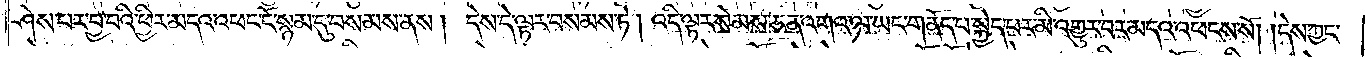ཤེས་པར་བྱ་བའི་ཕྱིར་མདའ་འཕང་ངོ་སྙམ་དུ་བསམས་ནས། དེས་དེ་ལྟར་བསམས་ཏེ། འདི་ལྟར་སེམས་ཅན་འགའ་ལ་ཡང་གནོད་པ་སྐྱེད་པར་མི་འགྱུར་བར་མདའ་འཕངས་སོ། །དེས་ཀྱང་
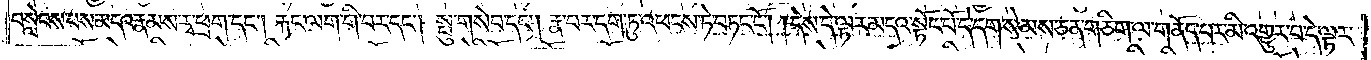བསླེབས་པས་མདའ་རྣམས་རྭ་ཕྲག་དང༌། རྐང་ལག་གི་བར་དང༌། སྤུ་གསེབ་དང༌། རྣ་བར་དག་ཏུ་འཕངས་ཏེ་བཏང་ངོ༌། །དེས་དེ་ལྟར་མདའ་སྟོང་པོ་དེ་དག་སེམས་ཅན་གཅིག་ལ་གནོད་པར་མི་འགྱུར་བ་དེ་ལྟར་
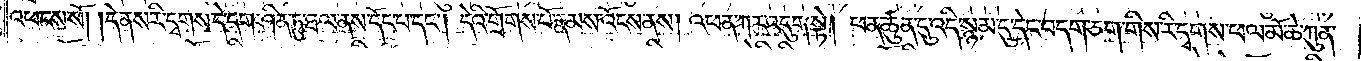འཕངས་སོ། །དེ་ནས་རི་དྭགས་དེ་དག་ཤིན་ཏུ་ཐལ་ནས་དོང་པ་དང༌། དེའི་གྲོགས་པོ་རྣམས་འོངས་ནས། འཕན་ཀར་འདུག་སྟེ། ཕན་ཚུན་དུ་འདི་སྙམ་དུ་དེང་བདག་ཅག་གིས་རི་དྭགས་ཕལ་མོ་ཆེ་ཀུན་
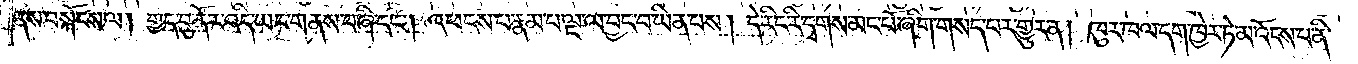ནས་བསྐོངས་ལ། གྱད་བུ་ནོར་འདི་ཡང་གནས་བཞི་དང༌། འཕངས་པ་རྣམ་པ་ལྔ་ལ་བྱང་བ་ཡིན་པས། དེ་རིང་རི་དྭགས་མང་པོ་ཞིག་གསད་པར་གྱུར་ན། ཁུར་ཁལ་དག་ཁྱེར་ཏེ་མ་འོངས་པ་ནི་
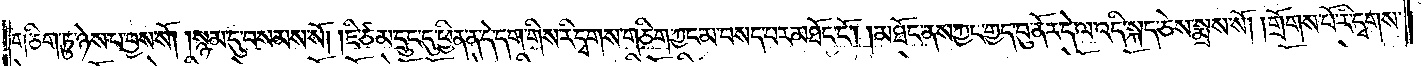གཅིག་ཏུ་ཉེས་པ་བྱས་སོ། །སྙམ་དུ་བསམས་སོ། །ཇི་ཙམ་དྲུང་དུ་ཕྱིན་ན་དེ་དག་གིས་རི་དྭགས་གཅིག་ཀྱང་མ་བསད་པར་མཐོང་ངོ༌། །མཐོང་ནས་ཀྱང་གྱད་བུ་ནོར་དེ་ལ་འདི་སྐད་ཅེས་སྨྲས་སོ། །གྲོགས་པོ་རི་དྭགས་
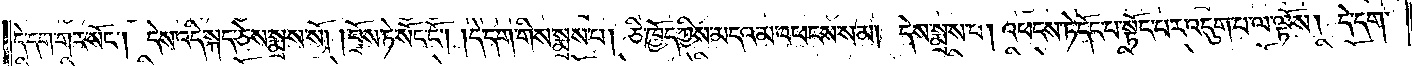དེ་དག་གར་སོང༌། དེས་འདི་སྐད་ཅེས་སྨྲས་སོ། །བྲོས་ཏེ་སོང་ངོ༌། །དེ་དག་གིས་སྨྲས་པ། ཅི་ཁྱོད་ཀྱིས་མདའ་མ་འཕངས་སམ། དེས་སྨྲས་པ། འཕངས་ཏེ་དོང་པ་སྟོང་པར་འདུག་པ་ལ་ལྟོས། དེ་དག་
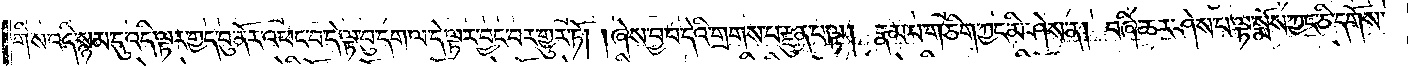གིས་འདི་སྙམ་དུ་འདི་ལྟར་གྱད་བུ་ནོར་འཕང་བ་དེ་ལྟ་བུ་དག་ལ་དེ་ལྟར་བྱང་བར་གྱུར་ཏོ། །ཞེས་བྱ་བ་དེའི་གྲགས་པ་རྫུན་པ་ལྟ། རྣམ་པ་གཅིག་ཀྱང་མི་ཤེས་ན། བཞི་ཆར་ཤེས་པ་ལྟ་སྨོས་ཀྱང་ཅི་དགོས་
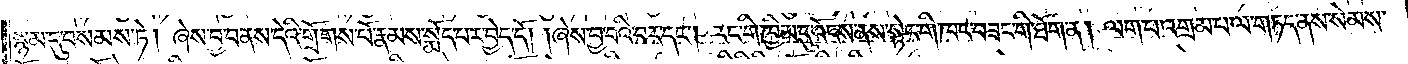སྙམ་དུ་བསམས་ཏེ། ཞེས་བྱ་བ་ནས་དེའི་གྲོགས་པོ་རྣམས་སྨོད་པར་བྱེད་དོ། །ཞེས་བྱ་བའི་བར་དང༌། རང་གི་ཁྱིམ་དུ་འོངས་ནས་སྟེང་གི་ཁང་བཟང་གི་ཐོག་ན། ལག་པ་འགྲམ་པ་ལ་གཏད་ནས་སེམས་
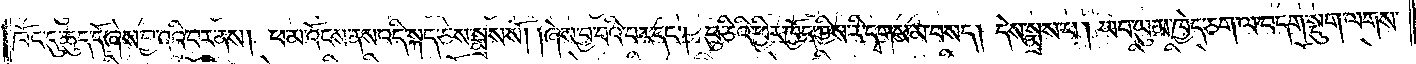ཁོང་དུ་ཆུད་དོ་ཞེས་བྱ་བའི་བར་ནས། ཕ་མ་འོངས་ནས་འདི་སྐད་ཅེས་སྨྲས་སོ། །ཞེས་བྱ་བའི་བར་དང༌། བུ་ཅིའི་ཕྱིར་ཁྱོད་ཀྱིས་རི་དྭགས་མ་བསད། དེས་སྨྲས་པ། ཡབ་ཡུམ་ཁྱེད་ཅག་ལ་བདག་སྡུག་ལགས་
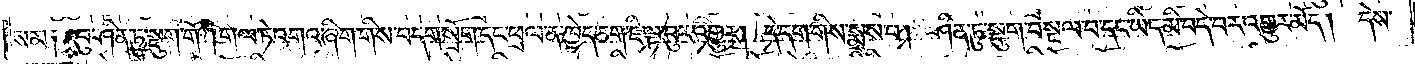སམ༑ བུ་ཤིན་ཏུ་སྡུག་གོ། །གལ་ཏེ་འགའ་ཞིག་གིས་བདག་སྲོག་དང་ཕྲལ་ན་ཁྱེད་ཅག་ཇི་ལྟ་བུར་འགྱུར། དེ་དག་གིས་སྨྲས་པ། ཤིན་ཏུ་སྡུག་བསྔལ་བ་དང་ཡིད་མི་བདེ་བར་འགྱུར་མོད། དེས་
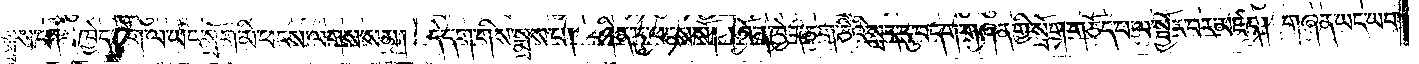སྨྲས་པ། ཁྱེད་ཅག་ལ་ཡང་སྲོག་མི་ཕངས་ལགས་སམ། དེ་དག་གིས་སྨྲས་པ། ཤིན་ཏུ་ཕངས་སོ། །འོ་ན་ཁྱེད་ཅག་ཅིའི་སླད་དུ་བདག་གཞན་གྱི་སྲོག་གཅོད་པ་ལ་སྦྱོར་བར་མཛད། གཞན་ཡང་ཡབ་
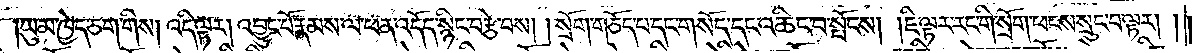ཡུམ་ཁྱེད་ཅག་གིས། འདི་ལྟར། འབྱུང་པོ་རྣམས་ལ་ཕན་འདོད་སྙིང་བརྩེ་བས། སྲོག་གཅོད་པ་དང་གསོད་དང་འཆིང་པ་སྤོངས། །ཇི་ལྟར་རང་གི་སྲོག་ཕངས་སྲུང་བ་ལྟར། །
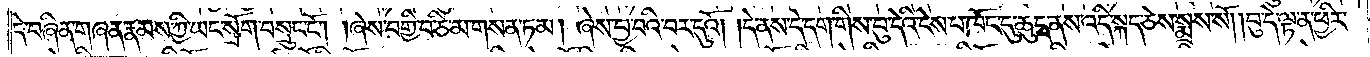དེ་བཞིན་གཞན་རྣམས་ཀྱི་ཡང་སྲོག་བསྲུང་ངོ༌། །ཞེས་བགྱི་བ་ཅི་མ་གསན་ཏམ། ཞེས་བྱ་བའི་བར་དུའོ། །དེ་ནས་དེ་དག་གིས་བུ་དེའི་ངེས་པ་ཁོང་དུ་ཆུད་ནས་འདི་སྐད་ཅེས་སྨྲས་སོ། །བུ་དེ་ལྟ་ན་ཕྱིར་
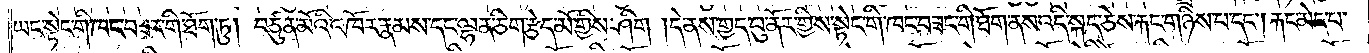ཡང་སྟེང་གི་ཁང་བཟང་གི་ཐོག་ཏུ། བཙུན་མོའི་འཁོར་རྣམས་དང་ལྷན་ཅིག་རྩེད་མོ་གྱིས་ཤིག །དེ་ནས་གྱད་བུ་ནོར་གྱིས་སྟེང་གི་ཁང་བཟང་གི་ཐོག་ནས་འདི་སྐད་ཅེས་རྐང་གཉིས་པ་དང༌། རྐང་མེད་པ་
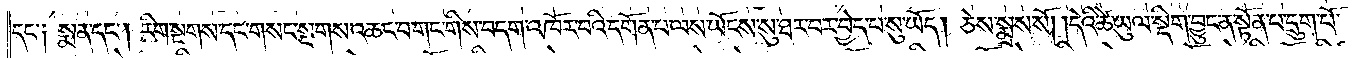དང་༑ སྨན་དང༌། རིག་སྔགས་དང་གསང་སྔགས་འཆང་བ་གང་གིས་བདག་འཁོར་བའི་དགོན་པ་ལས་ཡོངས་སུ་ཐར་བར་བྱེད་པ་སུ་ཡོད། ཅེས་སྨྲས་སོ། །དེའི་ཚེ་ཡུལ་སྡིག་བྱུང་ན་སྟོན་པ་དྲུག་པོ་
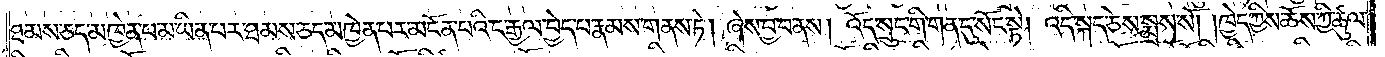ཐམས་ཅད་མཁྱེན་པ་མ་ཡིན་པར་ཐམས་ཅད་མཁྱེན་པར་མངོན་པའི་ང་རྒྱལ་བྱེད་པ་རྣམས་གནས་ཏེ། ཞེས་བྱ་བ་ནས། འོད་སྲུང་གི་གན་དུ་སོང་སྟེ། འདི་སྐད་ཅེས་སྨྲས་སོ། །ཁྱེད་ཀྱིས་ཆོས་ཀྱི་ཚུལ་
